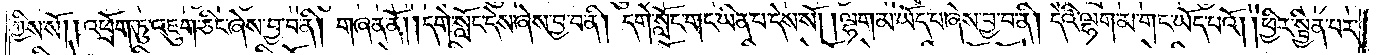ཀྱིས་སོ། །འཕྲོག་ཏུ་འཇུག་ཅིང་ཞེས་བྱ་བ་ནི། གཞན་ནོ། །དགེ་སློང་དེས་ཞེས་བྱ་བ་ནི། དགེ་སློང་གང་ཡིན་པ་དེས་སོ། །ལྷག་མ་ཡོད་པ་ཞེས་བྱ་བ་ནི། དེའི་ལྷག་མ་གང་ཡོད་པའོ། །ཕྱིར་སྦྱིན་པར་
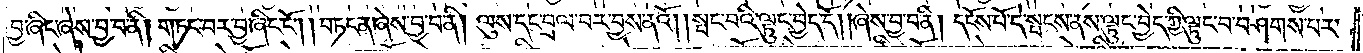བྱ་ཞིང་ཞེས་བྱ་བ་ནི། གཏང་བར་བྱ་ཞིང་ངོ༌། །བཏང་ན་ཞེས་བྱ་བ་ནི། ལུས་དང་བྲལ་བར་བྱས་ནའོ། །སྤང་བའི་ལྟུང་བྱེད་དོ། །ཞེས་བྱ་བ་ནི། དངོས་པོ་དེ་སྤངས་ནས་ལྟུང་བྱེད་ཀྱི་ལྟུང་བ་བཤགས་པར་
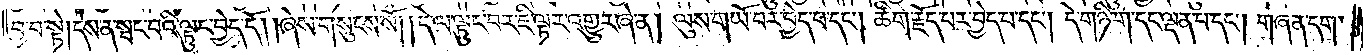བྱ་བ་སྟེ། དེས་ན་སྤང་བའི་ལྟུང་བྱེད་དོ། །ཞེས་གསུངས་སོ། །དེ་ལ་ལྟུང་བར་ཇི་ལྟར་འགྱུར་ཞེ་ན། ལུས་གཡོ་བར་བྱེད་པ་དང༌། ཚིག་རྗོད་པར་བྱེད་པ་དང༌། དེ་གཉི་ག་དང་ལྡན་པ་དང༌། གཞན་དག་
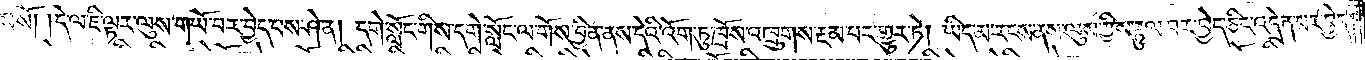གིས་སོ། །དེ་ལ་ཇི་ལྟར་ལུས་གཡོ་བར་བྱེད་པས་ཤེ་ན། དགེ་སློང་གིས་དགེ་སློང་ལ་གོས་བྱིན་ནས་དེའི་འོག་ཏུ་ཁྲོས་འཁྲུགས་རྔམ་པར་གྱུར་ཏེ། ཡིད་མ་རངས་ནས་ལུས་ཀྱིས་རྟུལ་བར་བྱེད་ཅིང་འདྲེན་པར་བྱེད།
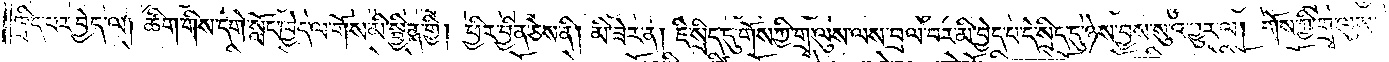ཁྲིད་པར་བྱེད་ལ། ཚིག་གིས་དགེ་སློང་ཁྱེད་ལ་གོས་མི་སྦྱིན་གྱི། ཕྱིར་བྱིན་ཅེས་ནི། མི་ཟེར་ན། ཇི་སྲིད་དུ་གོས་ཀྱི་གྲྭ་ལུས་ལས་བྲལ་བར་མི་བྱེད་པ་དེ་སྲིད་དུ་ཉེས་བྱས་སུ་འགྱུར་ལ། གོས་ཀྱི་གྲྭ་ལུས་
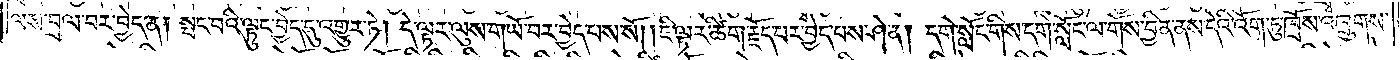ལས་བྲལ་བར་བྱེད་ན། སྤང་བའི་ལྟུང་བྱེད་དུ་འགྱུར་ཏེ། དེ་ལྟར་ལུས་གཡོ་བར་བྱེད་པས་སོ། །ཇི་ལྟར་ཚིག་རྗོད་པར་བྱེད་པས་ཤེ་ན། དགེ་སློང་གིས་དགེ་སློང་ལ་གོས་བྱིན་ནས་དེའི་འོག་ཏུ་ཁྲོས་འཁྲུགས་
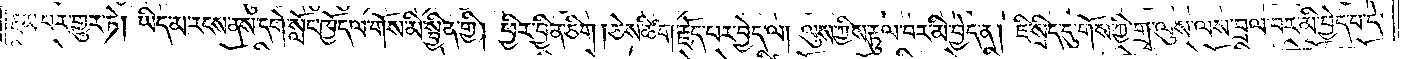རྔམ་པར་གྱུར་ཏེ། ཡིད་མ་རངས་ནས་དགེ་སློང་ཁྱོད་ལ་གོས་མི་སྦྱིན་གྱི། ཕྱིར་བྱིན་ཅིག། ཅེས་ཚིག་རྗོད་པར་བྱེད་ལ། ལུས་ཀྱིས་རྟུལ་བར་མི་བྱེད་ན། ཇི་སྲིད་དུ་གོས་ཀྱི་གྲྭ་ལུས་ལས་བྲལ་བར་མི་བྱེད་པ་དེ་
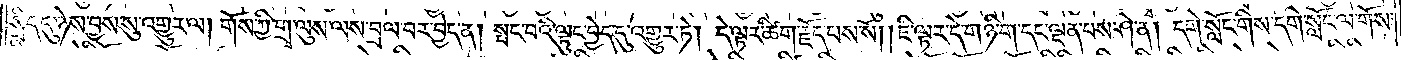སྲིད་དུ་ཉེས་བྱས་སུ་འགྱུར་ལ། གོས་ཀྱི་གྲྭ་ལུས་ལས་བྲལ་བར་བྱེད་ན། སྤང་བའི་ལྟུང་བྱེད་དུ་འགྱུར་ཏེ། དེ་ལྟར་ཚིག་རྗོད་པས་སོ། །ཇི་ལྟར་དེ་གཉི་ག་དང་ལྡན་པས་ཤེ་ན། དགེ་སློང་གིས་དགེ་སློང་ལ་གོས་
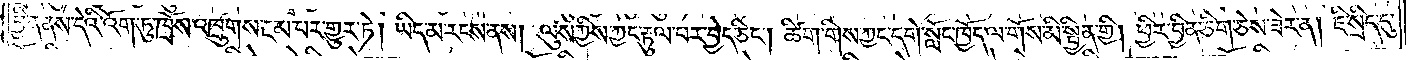བྱིན་ནས་དེའི་འོག་ཏུ་ཁྲོས་འཁྲུགས་རྔམ་པར་གྱུར་ཏེ། ཡིད་མ་རངས་ནས། ལུས་ཀྱིས་ཀྱང་རྟུལ་བར་བྱེད་ཅིང༌། ཚིག་གིས་ཀྱང་དགེ་སློང་ཁྱོད་ལ་གོས་མི་སྦྱིན་གྱི། ཕྱིར་བྱིན་ཅིག་ཅེས་ཟེར་ན། ཇི་སྲིད་དུ་
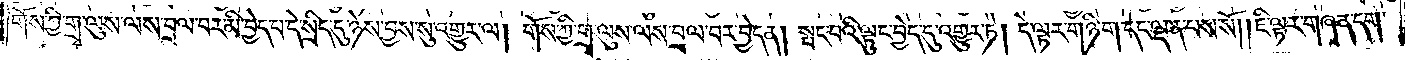གོས་ཀྱི་གྲྭ་ལུས་ལས་བྲལ་བར་མི་བྱེད་པ་དེ་སྲིད་དུ་ཉེས་བྱས་སུ་འགྱུར་ལ། གོས་ཀྱི་གྲྭ་ལུས་ལས་བྲལ་བར་བྱེད་ན། སྤང་བའི་ལྟུང་བྱེད་དུ་འགྱུར་ཏེ། དེ་ལྟར་གཉི་ག་དང་ལྡན་པས་སོ། །ཇི་ལྟར་གཞན་དག་
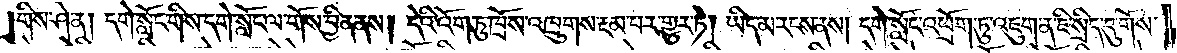གིས་ཤེ་ན། དགེ་སློང་གིས་དགེ་སློང་ལ་གོས་བྱིན་ནས། དེའི་འོག་ཏུ་ཁྲོས་འཁྲུགས་རྔམ་པར་གྱུར་ཏེ། ཡིད་མ་རངས་ནས། དགེ་སློང་འཕྲོག་ཏུ་འཇུག་ན་ཇི་སྲིད་དུ་གོས་
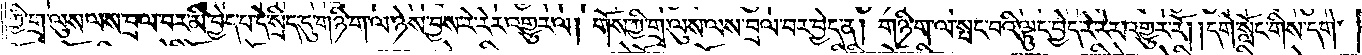ཀྱི་གྲྭ་ལུས་ལས་བྲལ་བར་མི་བྱེད་པ་དེ་སྲིད་དུ་གཉི་ག་ལ་ཉེས་བྱས་རེ་རེར་འགྱུར་ལ། གོས་ཀྱི་གྲྭ་ལུས་ལས་བྲལ་བར་བྱེད་ན། གཉི་ག་ལ་སྤང་བའི་ལྟུང་བྱེད་རེ་རེར་འགྱུར་རོ། །དགེ་སློང་གིས་དགེ་
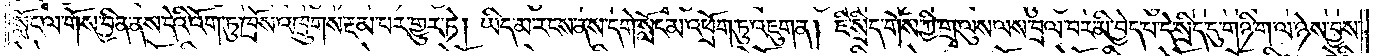སློང་ལ་གོས་བྱིན་ནས་དེའི་འོག་ཏུ་ཁྲོས་འཁྲུགས་རྔམ་པར་གྱུར་ཏེ། ཡིད་མ་རངས་ནས་དགེ་སློང་མ་འཕྲོག་ཏུ་འཇུག་ན། ཇི་སྲིད་གོས་ཀྱི་གྲྭ་ལུས་ལས་བྲལ་བར་མི་བྱེད་པ་དེ་སྲིད་དུ་གཉི་ག་ལ་ཉེས་བྱས་
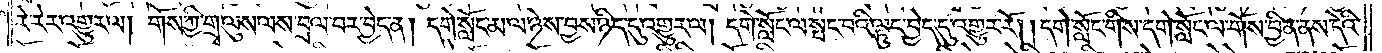རེ་རེར་འགྱུར་ལ། གོས་ཀྱི་གྲྭ་ལུས་ལས་བྲལ་བར་བྱེད་ན། དགེ་སློང་མ་ལ་ཉེས་བྱས་ཉིད་དུ་འགྱུར་ལ། དགེ་སློང་ལ་སྤང་བའི་ལྟུང་བྱེད་དུ་འགྱུར་རོ། །དགེ་སློང་གིས་དགེ་སློང་ལ་གོས་བྱིན་ནས་དེའི་
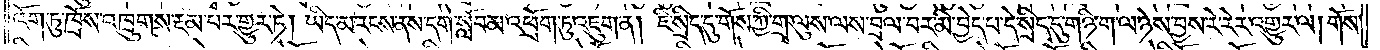འོག་ཏུ་ཁྲོས་འཁྲུགས་རྔམ་པར་གྱུར་ཏེ། ཡིད་མ་རངས་ནས་དགེ་སློབ་མ་འཕྲོག་ཏུ་འཇུག་ན། ཇི་སྲིད་དུ་གོས་ཀྱི་གྲྭ་ལུས་ལས་བྲལ་བར་མི་བྱེད་པ་དེ་སྲིད་དུ་གཉི་ག་ལ་ཉེས་བྱས་རེ་རེར་འགྱུར་ལ། གོས་
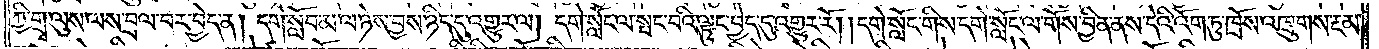ཀྱི་གྲྭ་ལུས་ལས་བྲལ་བར་བྱེད་ན། དགེ་སློབ་མ་ལ་ཉེས་བྱས་ཉིད་དུ་འགྱུར་ལ། དགེ་སློང་ལ་སྤང་བའི་ལྟུང་བྱེད་དུ་འགྱུར་རོ། །དགེ་སློང་གིས་དགེ་སློང་ལ་གོས་བྱིན་ནས་དེའི་འོག་ཏུ་ཁྲོས་འཁྲུགས་རྔམ་
